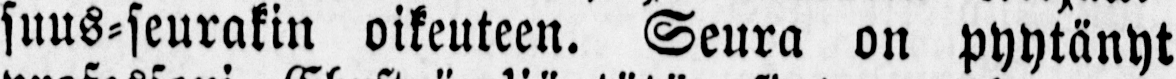suus-seurakin oikeuteen. Seura on pyytänyt
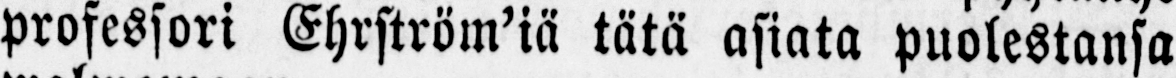professori Ehrström’iä tätä asiata puolestansa
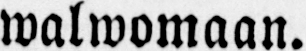walwomaan.
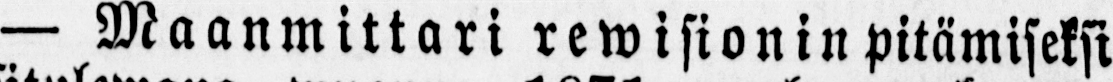— Maanmittari rewisionin pitämiseksi
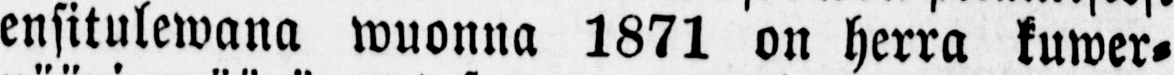ensitulewana wuonna 1871 on herra kuwer-
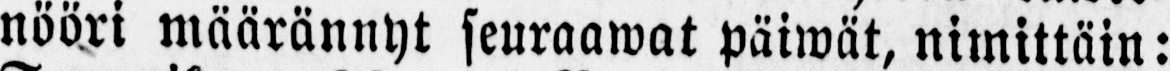nööri määrännyt seuraawat päiwät, nimittäin:
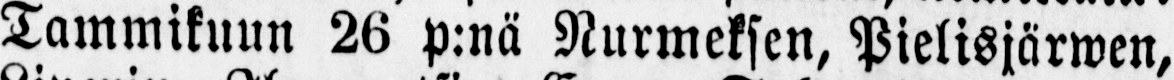Tammikuun 26 p:nä Nurmeksen, Pielisjärwen,
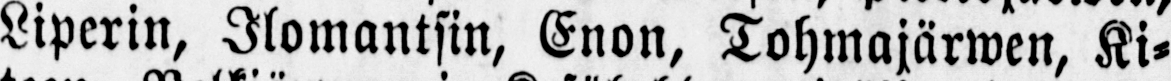Liperin, Ilomantsin, Enon, Tohmajärwen, Ki-
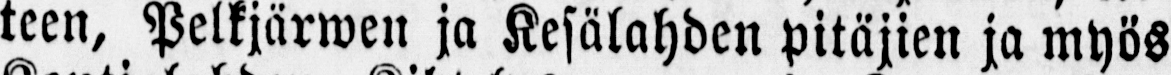teen, Pelkjärwen ja Kesälahden pitäjien ja myös
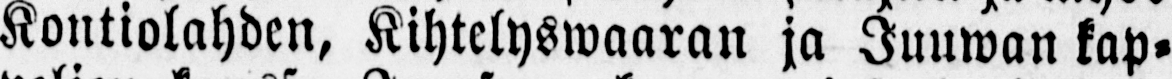Kontiolahden, Kihtelyswaaran ja Juuwan kap-
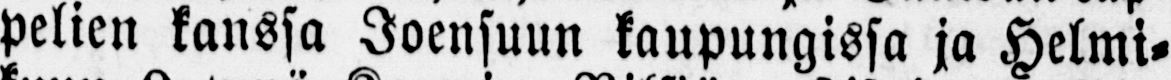pelien kanssa Joensuun kaupungissa ja Helmi-
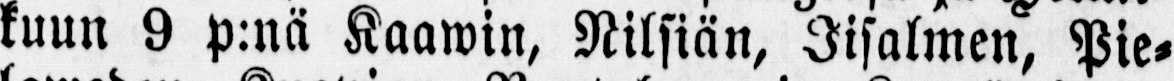kuun 9 p:nä Kaawin, Nilsiän, Iisalmen, Pie-
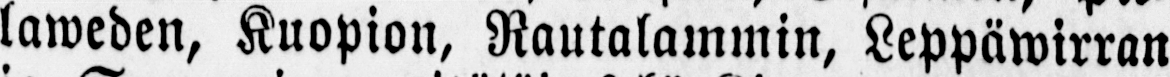laweden, Kuopion, Rautalammin, Leppäwirran
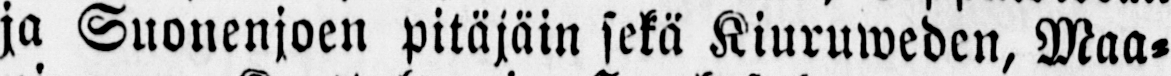ja Suonenjoen pitäjäin sekä Kiuruweden, Maa-
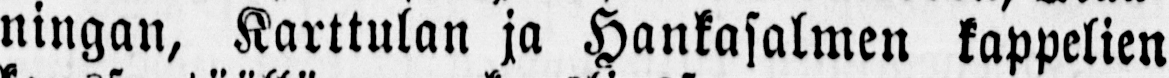ningan, Karttulan ja Hankasalmen kappelien
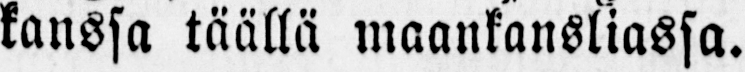kanssa täällä maankansliassa.
